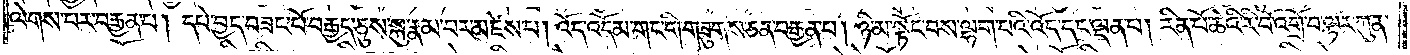ལེགས་པར་བརྒྱན་པ། དཔེ་བྱད་བཟང་པོ་བརྒྱད་ཅུས་སྐུ་རྣམ་པར་མཛེས་པ། འོད་འདོམ་གང་གི་གཟུགས་ཅན་བརྒྱན་པ། ཉི་མ་སྟོང་བས་ལྷག་པའི་འོད་དང་ལྡན་པ། རིན་པོ་ཆེའི་རི་བོ་འགྲོ་བ་ལྟར་ཀུན་
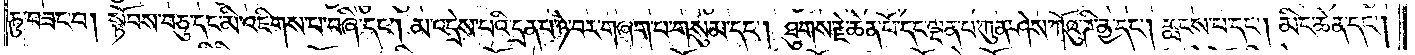ཏུ་བཟང་བ། སྟོབས་བཅུ་དང་མི་འཇིགས་པ་བཞི་དང༌། མ་འདྲེས་པའི་དྲན་པ་ཉེ་བར་གཞག་པ་གསུམ་དང༌། ཐུགས་རྗེ་ཆེན་པོ་དང་ལྡན་པ་ཀུན་ཤེས་ཀོའུ་ཌི་ཎྱ་དང༌། རླངས་པ་དང༌། མིང་ཆེན་དང༌།
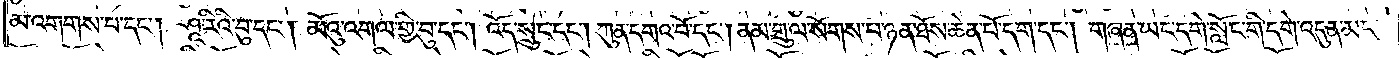མ་འགགས་པ་དང༌། ཤཱ་རིའི་བུ་དང༌། མོའུ་འགལ་གྱི་བུ་དང༌། འོད་སྲུང་དང༌། ཀུན་དགའ་བོ་དང༌། ནམ་གྲུ་ལ་སོགས་པ་ཉན་ཐོས་ཆེན་པོ་དག་དང༌། གཞན་ཡང་དགེ་སློང་གི་དགེ་འདུན་མང་
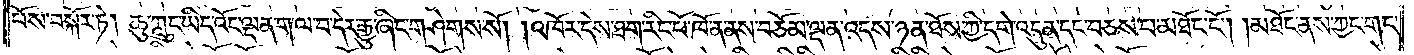པོས་བསྐོར་ཏེ། ཆུ་ཀླུང་ཡིད་འོང་ལྡན་ག་ལ་བ་དེར་རྒྱུ་ཞིང་གཤེགས་སོ། །འཁོར་དེས་ཐག་རིང་པོ་ཁོ་ན་ནས་བཅོམ་ལྡན་འདས་ཉན་ཐོས་ཀྱི་དགེ་འདུན་དང་བཅས་པ་མཐོང་ངོ༌། །མཐོང་ནས་ཀྱང་གང་
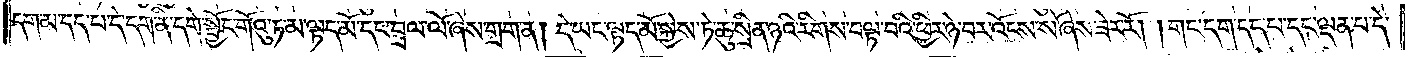དག་མ་དད་པ་དེ་དག་ནི་དགེ་སྦྱོང་གོའུ་ཏ་མ་ལྟད་མོ་དང་བྲལ་ལོ་ཞེས་གྲག་ན། དེ་ཡང་ལྟད་མོ་སྐྱེས་ཏེ་ཆུ་སྲིན་ཉའི་རིགས་བལྟ་བའི་ཕྱིར་ཉེ་བར་འོངས་སོ་ཞེས་ཟེར་རོ། །གང་དག་དད་པ་དང་ལྡན་པ་དེ་
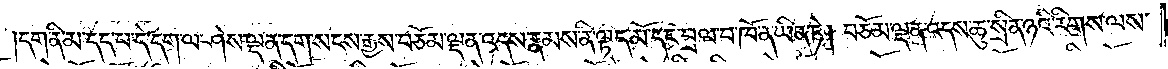དག་ནི་མ་དད་པ་དེ་དག་ལ་ཤེས་ལྡན་དག་སངས་རྒྱས་བཅོམ་ལྡན་འདས་རྣམས་ནི་ལྟད་མོ་དང་བྲལ་བ་ཁོ་ན་ཡིན་ཏེ། བཅོམ་ལྡན་འདས་ཆུ་སྲིན་ཉའི་རིགས་ལས་
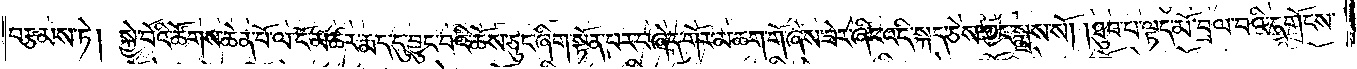བརྩམས་ཏེ། སྐྱེ་བོའི་ཚོགས་ཆེན་པོ་ལ་ངོ་མཚར་རྨད་དུ་བྱུང་བའི་ཆོས་ཅུང་ཞིག་སྟོན་པར་བཞེད་གོར་མ་ཆག་གོ་ཞེས་ཟེར་ཞིང་འདི་སྐད་ཅེས་ཀྱང་སྨྲས་སོ། །ཐུབ་པ་ལྟད་མོ་བྲལ་བའི་དགོངས་
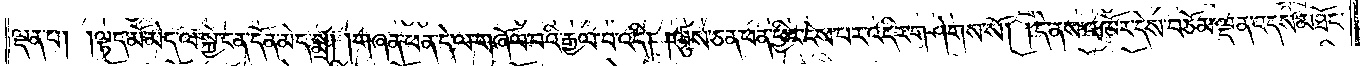ལྡན་པ། །ལྟད་མོ་མེད་ལ་སྐྱེ་ངན་དོན་མེད་སྨྲ། །གཞན་ཕན་དེ་ལ་གཞོལ་བའི་རྒྱལ་བ་འདི། །ལུས་ཅན་ཕན་ཕྱིར་ངེས་པར་འདིར་གཤེགས་སོ། །དེ་ནས་འཁོར་དེས་བཅོམ་ལྡན་འདས་མཐོང་
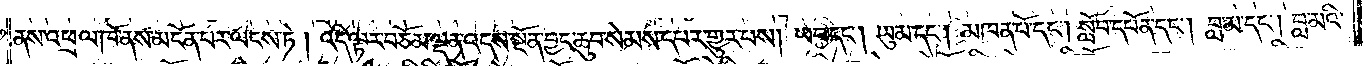ནས་འཕྲལ་ཁོ་ནས་མངོན་པར་ལངས་ཏེ། འདི་ལྟར་བཅོམ་ལྡན་འདས་སྔོན་བྱང་ཆུབ་སེམས་དཔར་གྱུར་པས། ཡབ་དང༌། ཡུམ་དང༌། མཁན་པོ་དང༌། སློབ་དཔོན་དང༌། བླ་མ་དང༌། བླ་མའི་
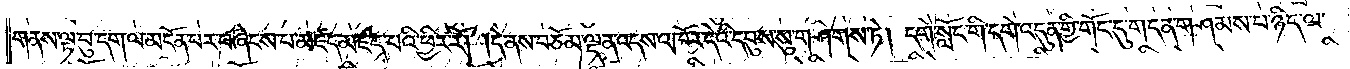གནས་ལྟ་བུ་དག་ལ་མངོན་པར་བཞེངས་པ་མཛད་མཛད་པའི་ཕྱིར་རོ། །དེ་ནས་བཅོམ་ལྡན་འདས་འཁོར་དེའི་དབུས་སུ་གཤེགས་ཏེ། དགེ་སློང་གི་དགེ་འདུན་གྱི་གོང་དུ་གདན་གཤམས་པ་ཉིད་ལ་
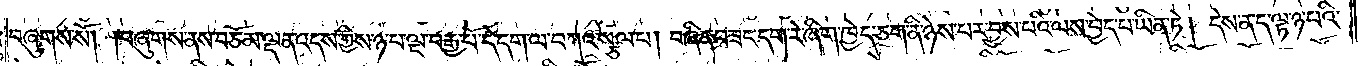བཞུགས་སོ། །བཞུགས་ནས་བཅོམ་ལྡན་འདས་ཀྱིས་ཉ་པ་ལྔ་བརྒྱ་པོ་དེ་དག་ལ་བཀའ་སྩལ་པ། བཞིན་བཟང་དག་རེ་ཞིག་ཁྱེད་ཅག་ནི་ཉེས་པར་བྱས་པའི་ལས་བྱེད་པ་ཡིན་ཏེ། དེས་ན་ད་ལྟ་ཉ་པའི་
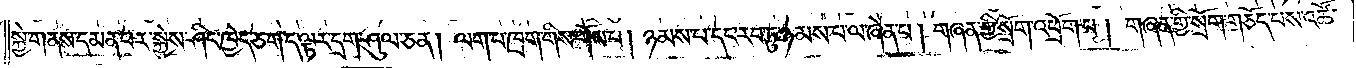སྐྱེ་གནས་དམན་པར་སྐྱེས་ཤིང་ཁྱེད་ཅག་ད་ལྟར་དྲག་ཤུལ་ཅན། ལག་པ་ཁྲག་གིས་གོས་པ། ཉམས་པ་དང་རབ་ཏུ་ཉམས་པ་ལ་ཞེན་པ། གཞན་གྱི་སྲོག་འཕྲོག་པ། གཞན་གྱི་སྲོག་གཅོད་པས་འཚོ་
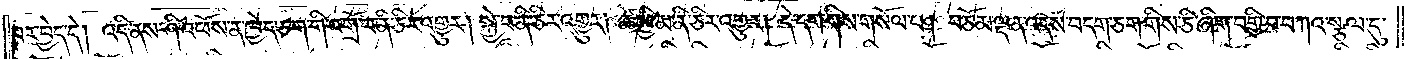བར་བྱེད་དེ། འདི་ནས་ཤི་འཕོས་ན་ཁྱེད་ཅག་གི་འགྲོ་བ་ནི་ཅིར་འགྱུར། སྐྱེ་བ་ནི་ཅིར་འགྱུར། ཚེ་ཕྱི་མ་ནི་ཅིར་འགྱུར། དེ་དག་གིས་གསོལ་པ། བཅོམ་ལྡན་འདས་བདག་ཅག་གིས་ཅི་ཞིག་བགྱི་པ་བཀའ་སྩལ་དུ་
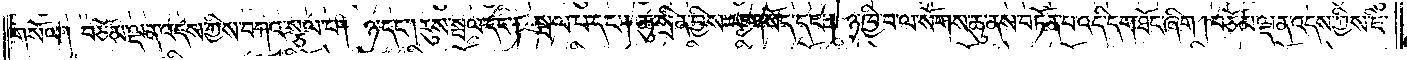གསོལ། བཅོམ་ལྡན་འདས་ཀྱིས་བཀའ་སྩལ་པ། ཉ་དང༌། རུས་སྦལ་དང༌། སྦལ་པ་དང༌། ཆུ་སྲིན་བྱིས་པ་གསོད་དང༌། ཉ་ཁྱི་བ་ལ་སོགས་ཆུ་ནས་བཏོན་པ་འདི་དག་ཐོང་ཞིག །བཅོམ་ལྡན་འདས་ཀྱིས་ཇི་
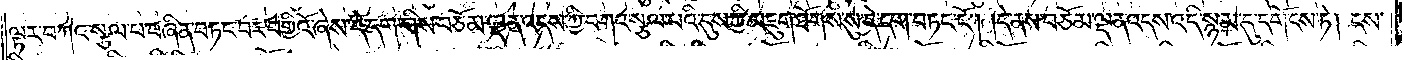ལྟར་བཀའ་སྩལ་པ་བཞིན་བཏང་བར་བགྱིའོ་ཞེས་དེ་དག་གིས་བཅོམ་ལྡན་འདས་ཀྱི་བཀའ་སྩལ་པའི་དུས་ཀྱི་མཇུག་ཐོགས་སུ་དེ་དག་བཏང་ངོ༌། །དེ་ནས་བཅོམ་ལྡན་འདས་འདི་སྙམ་དུ་དགོངས་ཏེ། ངས་
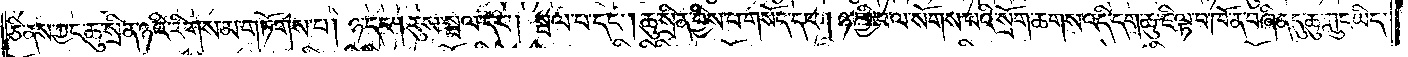ཅི་ནས་ཀྱང་ཆུ་སྲིན་ཉའི་རིགས་མ་གཏོགས་པ། ཉ་དང༌ཤ་རུས་སྦལ་དང༌། སྦལ་པ་དང༌། ཆུ་སྲིན་བྱིས་པ་གསོད་དང༌། ཉ་ཁྱི་བ་ལ་སོགས་པའི་སྲོག་ཆགས་འདི་དག་ཆུ་ཇི་ལྟ་བ་ཁོ་ན་བཞིན་དུ་ཆུ་ཀླུང་ཡིད་
